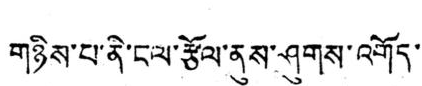གཉིས་པ་ནི་ངལ་རྩོལ་ནུས་ཤུགས་འགོད་
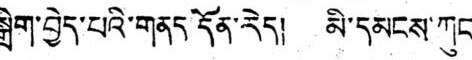སྒྲིག་བྱེད་པའི་གནད་དོན་རེད། མི་དམངས་ཀུང་
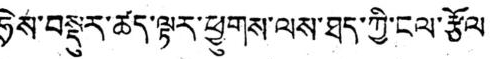ཧྲེས་བསྡུར་ཚད་ལྟར་ཕྱུགས་ལས་ཐད་ཀྱི་ངལ་རྩོལ
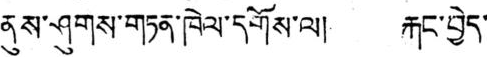ནུས་ཤུགས་གཏན་ཁེལ་དགོས་ལ། རྐང་བྱེད་
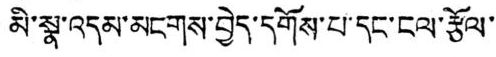མི་སྣ་འདམ་མངགས་བྱེད་དགོས་པ་དང་ངལ་རྩོལ་
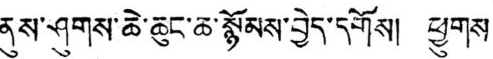ནུས་ཤུགས་ཆེ་ཆུང་ཆ་སྙོམས་བྱེད་དགོས། ཕྱུགས
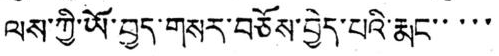ལས་ཀྱི་ཡོ་བྱད་གསར་བཅོས་བྱེད་པའི་རྨང་་་་་
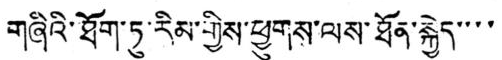གཞིའི་ཐོག་ཏུ་རིམ་གྱིས་ཕྱུགས་ལས་ཐོན་སྐྱེད་་་་
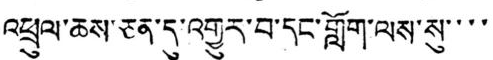འཕྲུལ་ཆས་ཅན་དུ་འགྱུར་བ་དང་གློག་ལས་སུ་་་་
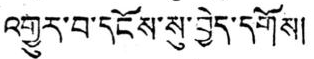འགྱུར་བ་དངོས་སུ་བྱེད་དགོས།
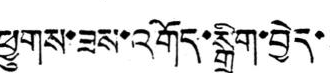ཕྱུགས་ཟས་འགོད་སྒྲིག་བྱེད་
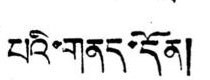པའི་གནད་དོན།
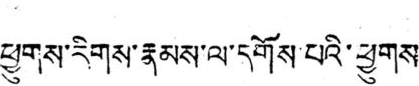ཕྱུགས་རིགས་རྣམས་ལ་དགོས་པའི་ཕྱུགས
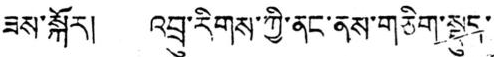ཟས་སྐོར། འབྲུ་རིགས་ཀྱི་ནང་ནས་གཅིག་སྡུད་
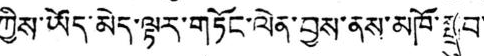ཀྱིས་ཡོད་མེད་ལྟར་གཏོང་ལེན་བྱས་ནས་མཁོ་སྒྲུབ་
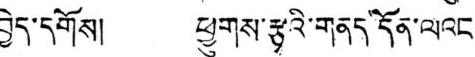བྱེད་དགོས། ཕྱུགས་རྩྭའི་གནད དོན་ལའང་
